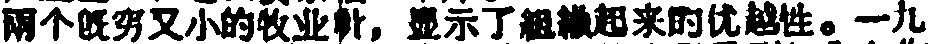兩个既穷又小的牧业社，显示了組織起来的优越性。一九
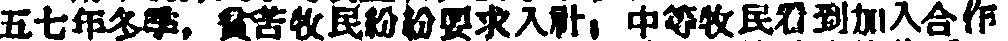五七年冬季，貧苦牧民紛紛要求入社；中等牧民看到加入合作
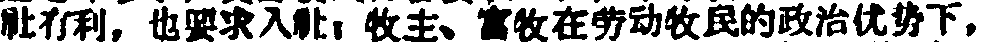社有利，也要求入社；牧主、富牧在劳动牧民的政治优势下，
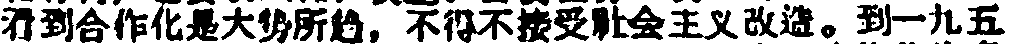看到合作化是大势所趋，不得不接受社会主义改造。到一九五
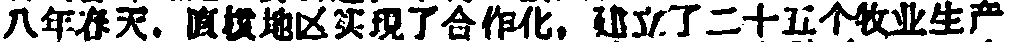八年春天、直核地区实現了合作化，建立了二十五个牧业生产
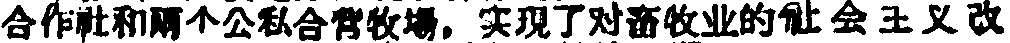合作社和兩个公私合营牧場，实現了对畜牧业的社会主义改
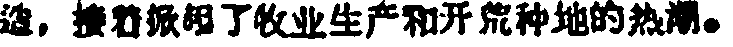糟，接着掀起了牧业生产和开荒种地的热潮。
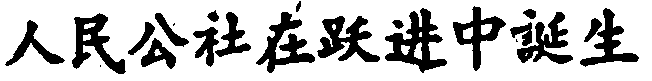人民公社在跃进中誕生
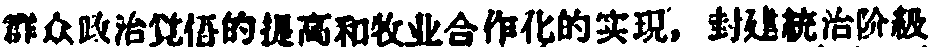群众政治覚悟的提高和牧业合作化的实現，封建統治阶級
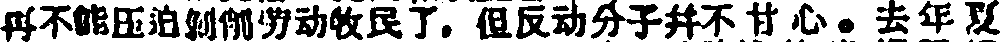再不能压迫剝削劳动牧民了，但反动分子并不甘心。去年夏
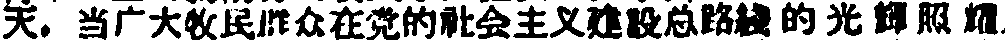天，当广大牧民群众在党的社会主义建設总路綫的光輝照耀
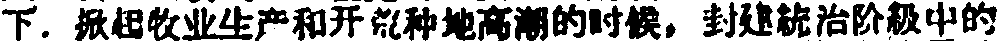下，掀起牧业生产和开荒种地高潮的时候，封建統治阶級中的
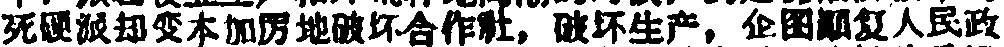死硬派却变本加厉地破坏合作社，破坏生产，企困顛复人民政
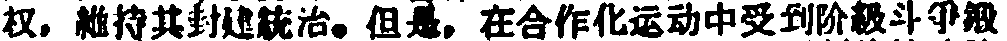权，維持其封建統治。但是，在合作化运动中受到阶級斗爭鍛
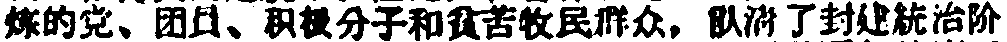鍊的党、团員、积极分子和貧苦牧民群众，认清了封建統治阶
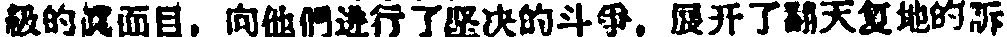級的眞面目，向他們进行了堅决的斗爭，展开了翻天复地的訴
